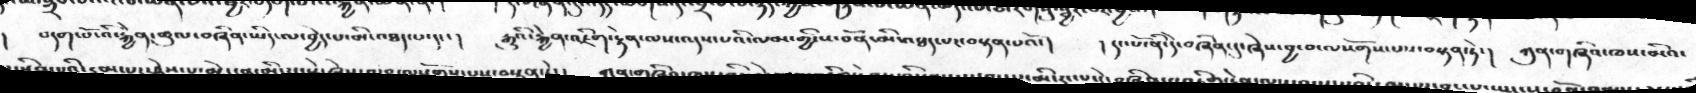།    བདག་པོ་འི་རྐྱེན་ཚུལ་བཞིན་ཡིད་ལ་བྱེད་པ་མི་འཐད་པ་དང་།   རྒྱུའི་རྐྱེན་འཇིག་རྟེན་ལས་འདས་པའི་ལམ་གྱི་ས་བོན་མི་འཐད་པར་བསྟན་པའོ་།   ། དང་པོ་ནི་དེ་བཞིན་དུ་ཞེས་བྱ་བ་ལསོགས་པས་བསྟན་ཏེ་།   ཀུན་གཞིའ་ཁས་མིའ་
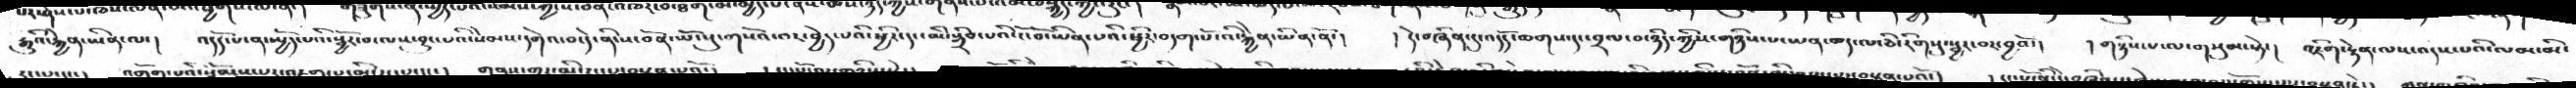རྒྱུའི་རྐྱེན་ཡིན་ལ་།   འདོད་པ་ན་སྤྱོད་པའི་སྦྱོར་བ་ལས་བྱུང་པའི་སེམས་དགེའ་བ་དེ་ནི་ས་བོན་ཡོངསུ་གསོའ་བར་བྱེད་པའི་ཕྱིར་དང་མི་སྒྲིབ་པའི་ངོ་བོ་ཡིན་པའི་ཕྱིར་བདག་པོ་འི་རྐྱེན་ཡིན་ནོ་།    ། དེ་བཞིན་དུ་འདོད་ཆགས་དང་བྲལ་བ་ཉིད་ཀྱིས་གཉིས་པ་ཡན་ཆད་ལ་ཅི་རིགསུ་སྦྱར་བར་བྱའོ་།    ། གཉིས་པ་ལ་གསུམ་སྟེ་།   འཇིག་རྟེན་ལས་འདས་པའི་ལམ་མི་
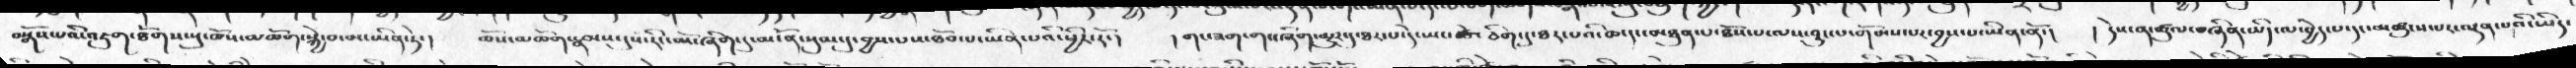བསྒོས་པའི་འཇུག་ཐོགས་སུ་ཆོས་མཆོག་སྐྱེ་བ་མ་ཡིན་ཏེ་།    ཆོས་མཆོག་རྣམས་དུས་རིང་མོ་ཞིག་དུ་མངོན་སུམ་དུ་བྱས་པས་ཐོབ་པ་ཡིན་པའི་ཕྱིར་རོ་།   །གང་ཟག་གང་ཞིག་མྱུར་དུ་ཐར་པ་དེ་ཡང་རྩེ་ཅིག་དུ་ཐར་པའི་ཆ་དང་མཐུན་པ་ཐོས་པ་ལས་བྱུང་པ་གོམས་པར་བྱས་པ་ཡིན་ནོ་།   ། དེས་ན་ཚུལ་བཞིན་ཡིད་ལ་བྱེད་པ་དང་མཚུངས་པར་ལྡན་པའི་ཡིད་
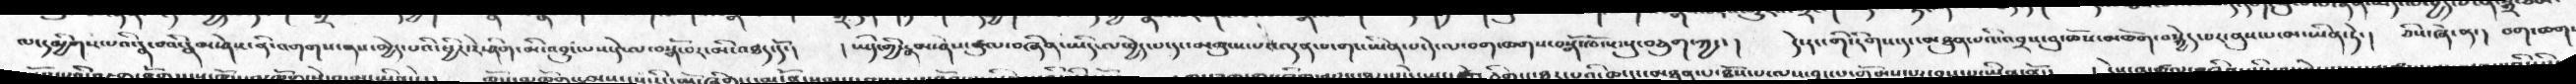ལ་དམྱིགས་པའི་རྣ་བའི་རྣམ་ཤེས་ནི་འགགས་ནས་མྱེད་པའི་ཕྱིར་རེ་ཞིག་མི་འབྱུང་པས་དེ་ལ་བསྒོ་བར་མི་འཐད་དོ་།    ། ཡིད་གྱི་རྣམ་ཤེས་ཚུལ་བཞིན་ཡིད་ལ་བྱེད་པ་དང་མཚུངས་པར་ལྡན་པ་གང་ཡིན་པ་དེ་ལ་བག་ཆགས་བསྒོ་ཁོངས་སུ་བཅུག་ཀྱང་།   དེ་རང་གི་རིགས་དང་མཐུན་པའི་འབྲས་བུ་ཆོས་མཆོག་བསྐྱེད་པར་ནུས་པ་མ་ཡིན་ཏེ་།   ཅིས་ཞེ་ན་།  བག་ཆག
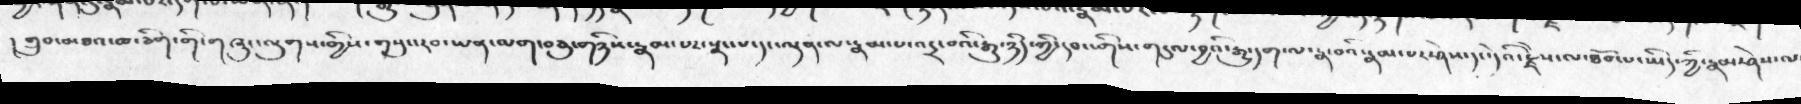།གྲུབ་མཐའ་ཁ་ཅིག་གི་གཞུང་ལུགས་གྱིས་གསུང་རབ་ཡན་ལག་བཅུ་གཉིས་རྣམ་པར་སྣང་པ་དང་ལྡན་ལ་རྣམ་པ་འདྲ་བའི་རྒྱུ་ཉིད་ཀྱི་དབང་གིས་གདུལ་བྱའི་རྒྱུ་དག་ལ་རྣ་བའི་རྣམ་པར་ཤེས་དང་དེའི་རྗེས་ལ་ཐོབ་པ་ཡིད་ཀྱི་རྣམ་ཤེས་ལ་
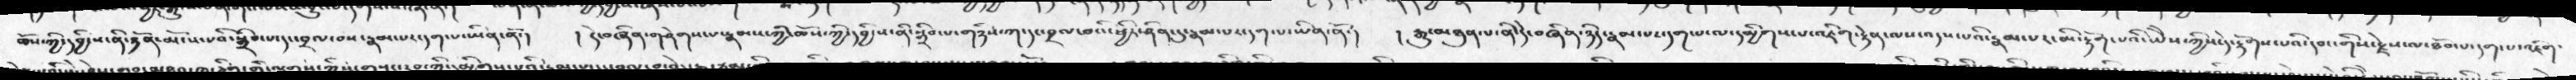ཆོས་ཀྱི་དབྱིངས་ནི་ཉོན་མོངས་པའི་སྒྲིབ་པ་དང་བྲལ་བས་རྣམ་པར་དག་པ་ཡིན་ནོ་།   །དེ་བཞིན་གཤེགས་པ་རྣམས་ཀྱི་ཆོས་ཀྱི་དབྱིངས་ནི་སྒྲིབ་པ་གཉིས་ཀ་དང་བྲལ་བའི་ཕྱིར་ཤིན་དུ་རྣམ་པར་དག་པ་ཡིན་ནོ་།  །རྒྱུ་མཐུན་པ་ནི་དེ་བཞིན་ཉིད་རྣམ་པར་དག་པ་ལ་དམྱིགས་པ་འཇིག་རྟེན་ལས་འདས་པའི་རྣམ་པར་མི་རྟོག་པའི་ཡཻས་ཀྱིས་དེ་རྟོགས་པའི་དབང་གིས་རྗེས་ལ་ཐོབ་པ་དག་པ་འཇིག་
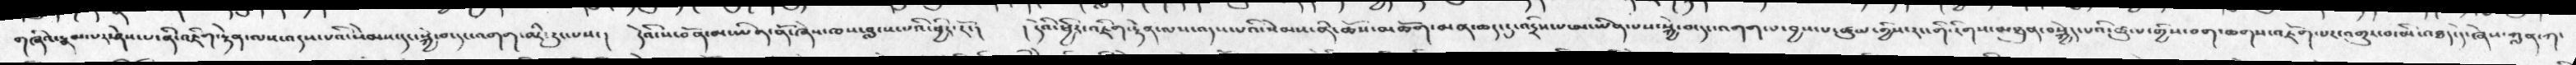གཞིའ་རྣམ་པར་ཤེས་པ་ནི་འཇིག་རྟེན་ལས་འདས་པའི་སེམས་དང་སྐྱེ་བ་དང་འགག་མི་རུང་པས་།  དེའི་ས་བོན་མ་ཡིན་ནོ་ཞེས་ཁས་བླངས་པའི་ཕྱིར་རོ་།   །དེའི་ཕྱིར་འཇིག་རྟེན་ལས་འདས་པའི་སེམས་ནི་ཆོས་མཆོག་མན་ཆད་དུ་འདྲིས་པ་མ་ཡིན་པས་སྐྱེ་བ་དང་འགག་པ་བྱས་པ་ཚུལ་གྱིས་རང་གི་རིགས་མཐུན་བསྐྱེད་པའི་ཚུལ་གྱིས་བག་ཆགས་འཇོག་པར་འགྱུར་བ་མི་འཐད་དེ་ཞེས་ཀླན་ཀ་
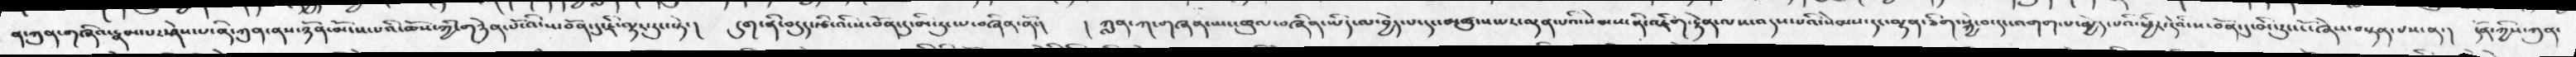ན་ཀུན་གཞིའ་རྣམ་པར་ཤེས་པ་ནི་ཀུན་ནས་ཉོན་མོངས་པའི་ཆོས་ཀྱི་གཉེན་པོ་འི་ས་བོན་དུ་ཇི་ལྟར་རུང་སྟེ་།   དུག་ནི་བདུད་རྩི་འི་ས་བོན་དུ་མི་རུང་པ་བཞིན་ནོ་།   །ཀླན་ཀ་གཞན་ཡང་ཚུལ་བཞིན་ཡིད་ལ་བྱེད་པ་དང་མཚུངས་པར་ལྡན་པའི་སེམས་ནི་འཇིག་རྟེན་ལས་འདས་པའི་སེམས་དང་ལྷན་ཅིག་སྐྱེ་བ་དང་འགག་པ་མྱེད་པའི་ཕྱིར་དེའི་ས་བོན་དུ་མི་རུང་ངོ་ཞེས་བསྟན་པས་ན་།   དོན་ཀྱིས་ཀུན་
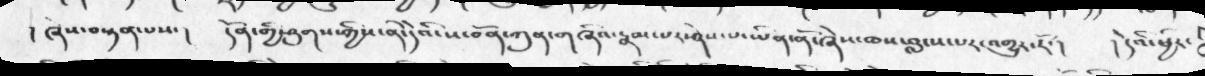།ཞེས་བསྟན་པས་།  དོན་གྱི་ཤུགས་ཀྱིས་ནི་དེའི་ས་བོན་ཀུན་གཞིའ་རྣམ་པར་ཤེས་པ་ཡིན་ནོ་ཞེས་ཁས་བླངས་པར་འགྱུར་རོ་།   །དེའི་ཕྱིར་
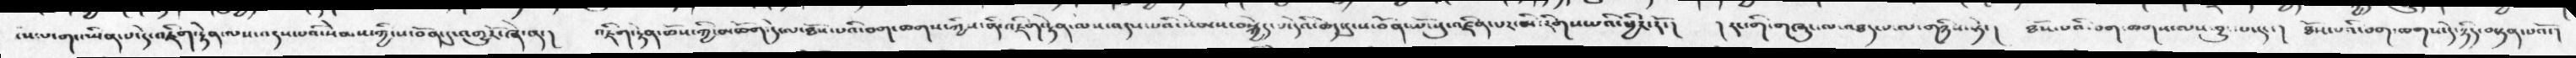ངེས་པ་གང་ཡིན་པ་དེ་འཇིག་རྟེན་ལས་འདས་པའི་སེམས་ཀྱི་ས་བོན་དུ་འགྱུརོ་ཞེ་ན་།   འཇིག་རྟེན་ཆོས་ཀྱི་མཆོག་དེ་ལ་ཐོས་པའི་བག་ཆགས་ཀྱིས་ནི་འཇིག་རྟེན་ལས་འདས་པའི་སེམས་བསྐྱེད་པ་དེའི་ཆེད་དུ་ས་བོན་ཡོངསུ་འཛིན་པར་མི་རིགས་པའི་ཕྱིར་རོ་།   །རང་གི་གཞུང་ལ་འཐད་པ་ལ་གཉིས་སྟེ་།   ཐོས་པའི་བག་ཆགས་ལས་བྱུང་པ་དང་།   ཐོས་པའི་བག་ཆགས་དེ་ཉིད་བསྟན་པའོ་།
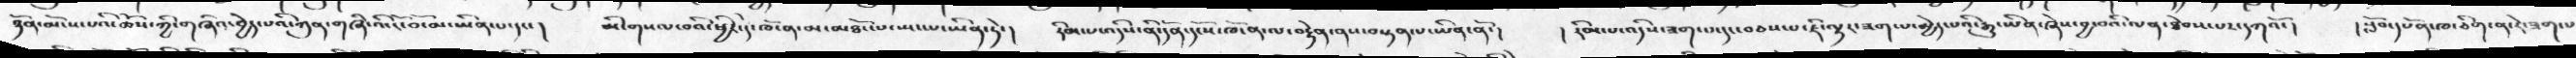ཉོན་མོངས་པའི་ཆོས་ཀྱི་གཞིའ་བྱེད་པའི་ཀུན་གཞི་འི་ངོ་བོ་མ་ཡིན་པ་དང་།    མི་གསལ་བའི་ཕྱིར་དེ་ཁོ་ན་མ་མཐོང་པ་སྤང་པ་ཡིན་ཏེ་།   རིམ་པ་འདིས་ནི་དོན་དངོས་ཁོ་ན་ལ་བརྟེན་ནས་བསྟན་པ་ཡིན་ནོ་།   ། རིམ་པ་འདིས་ཟག་པ་དང་བཅས་པ་ཇི་ལྟར་ཟག་པ་མྱེད་པའི་རྒྱུ་ཡིན་ཞེས་བྱ་བའི་ལན་ཐེབས་པར་དཀའོ་།    །སློབ་དཔོན་ཁ་ཅིག་ན་རེ་ཟག་པ
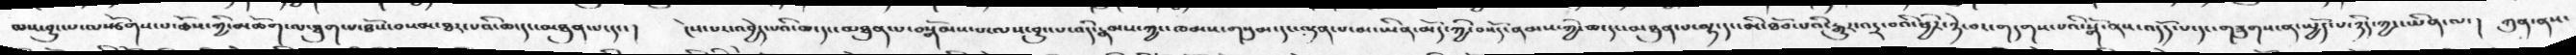ལས་བྱུང་པ་ལསྩོགས་པ་ཆོས་ཀྱི་མཆོག་ལ་ཐུག་པ་ཐོས་བསམ་ཐར་པའི་ཆ་དང་མཐུན་པ་དང་།   ངེས་པར་འབྱེད་པའི་ཆ་དང་མཐུན་པ་བསྒོམས་པ་ལས་བྱུང་པ་འདི་རྣམས་ཀྱང་ཁམས་གསུམ་དང་ལྡན་པ་མ་ཡིན་མོད་ཀྱི་བསོད་ནམས་ཀྱི་ཆ་དང་མཐུན་པ་ལྷ་དང་མི་ཐོབ་པའི་རྒྱུར་འདྲ་བའི་ཕྱིར་ཉེ་བར་གདགས་པའི་སྒོ་ནས་འདོད་པ་དང་གཟུགས་ན་སྤྱོད་པ་ཉིད་ཀྱང་ཡིན་ལ་།  ཀུན་ནས་
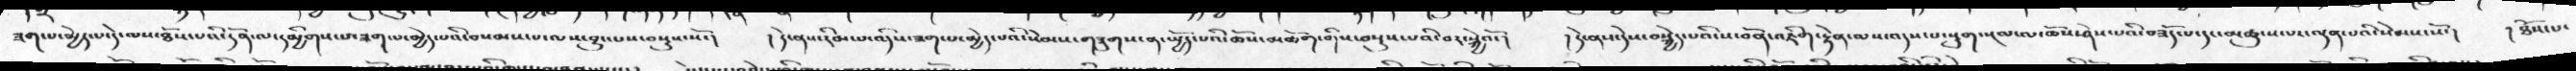ཟག་པ་མྱེད་པ་དེ་ལས་ཐོས་པའི་དོན་ལ་དམྱིགས་པ་ཟག་པ་མྱེད་པའི་བསམས་པ་ལས་བྱུང་པས་བསྡུས་སོ་།   །དེ་ནས་རིམ་པ་འདིས་ཟག་པ་མྱེད་པའི་སེམས་གཟུགས་ན་སྤྱོད་པའི་ཆོས་མཆོག་གིས་བསྡུས་པའི་བར་སྐྱེའོ་།    །དེ་ནས་དེས་བསྐྱེད་པའི་ས་བོན་འཇིག་རྟེན་ལས་འདས་པ་སྡུག་སྔལ་ལ་ཆོས་ཤེས་པའི་བཟོད་པ་དང་མཚུངས་པར་ལྡན་པའི་སེམས་སོ་།    །ཐོས་པ་
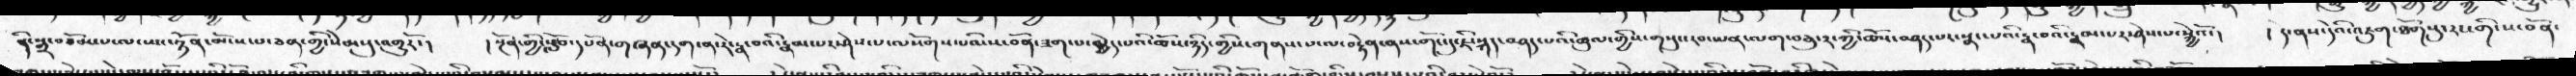ནི་སྒྲ་བཅོམ་པ་ལ་ཡང་ཉོན་མོངས་པ་ཅན་གྱི་སེམསུ་འགྱུརོ་།   ། སྔོན་གྱི་སློབ་དཔོན་གཞན་དག་ན་རེ་རྣ་བའི་རྣམ་པར་ཤེས་པ་ལསོགས་པའི་ས་བོན་ཟག་པ་མྱེད་པའི་ཆོས་ཉིད་གྱིས་གནས་པ་ལ་བརྟེན་ནས་གོང་དུ་ཇི་སྐད་བཤད་པའི་ཚུལ་གྱིས་གསུང་རབ་ཡན་ལག་བཅུ་༢་ཀྱི་ཆོས་བཤད་པར་སྣང་པའི་རྣ་བའི་རྣམ་པར་ཤེས་པ་སྐྱེའོ་།    ། དེ་ནས་དེའི་འཇུག་ཐོགསུ་རང་གི་ས་བོན་
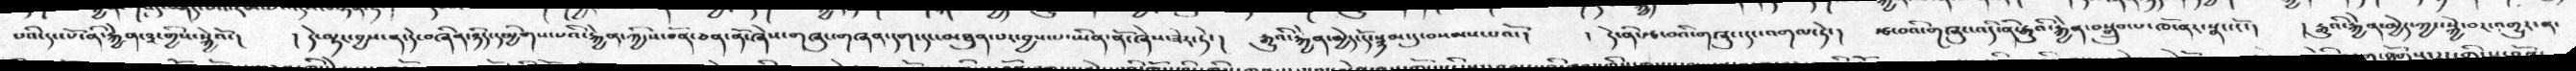པའི་དང་པོ་ནི་རྐྱེན་༣་གྱིས་སྐྱེའོ་།    །དེ་ལྟར་བྱས་ན་དེ་བཞིན་ཉིད་དམྱིགས་པའི་རྐྱེན་ཀྱི་ས་བོན་ཅན་ནོ་ཞེས་གཞུང་གཞན་དག་དང་མཐུན་པར་བྱས་པ་ཡིན་ནོ་ཞེས་ཟེར་ཏེ་།   རྒྱུའི་རྐྱེན་མྱེད་དོ་སྙམ་དུ་བསམས་པའོ་།    །དེ་ནི་རྩ་བའི་གཞུང་དང་འགལ་ཏེ་།   རྩ་བའི་གཞུང་འདི་ནི་རྒྱུའི་རྐྱེན་བསྒྲུབ་པ་ཁོ་ནར་སྣང་ངོ་།    ། རྒྱུའི་རྐྱེན་མྱེད་ཀྱང་སྐྱེ་བར་འགྱུར་ན་
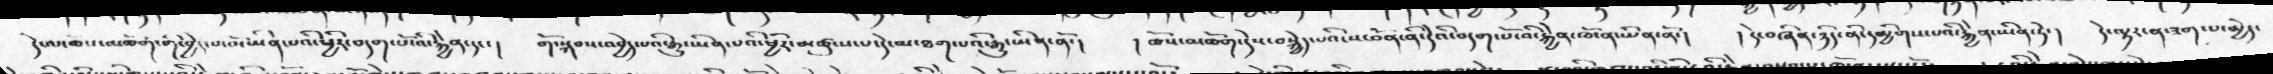དེ་ལ་ཆོས་མཆོག་གི་བྱེད་པ་པོ་ཡིན་པའི་ཕྱིར་བདག་པོ་འི་རྐྱེན་དང་།   གོ་སྐབས་འབྱེད་པའི་རྒྱུ་ཡིན་པའི་ཕྱིར་མཚུངས་པ་དེ་མ་ཐག་པའི་རྒྱུ་ཡིན་ནོ་།    །ཆོས་མཆོག་དེས་བསྐྱེད་པའི་ས་བོན་ནི་དེའི་བདག་པོ་འི་རྐྱེན་ཁོ་ན་ཡིན་ནོ་།   །དེ་བཞིན་ཉིད་ནི་དམྱིགས་པའི་རྐྱེན་ཡིན་ཏེ་།   དེ་ལྟར་ན་ཟག་པ་མྱེད་
